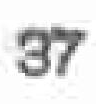37
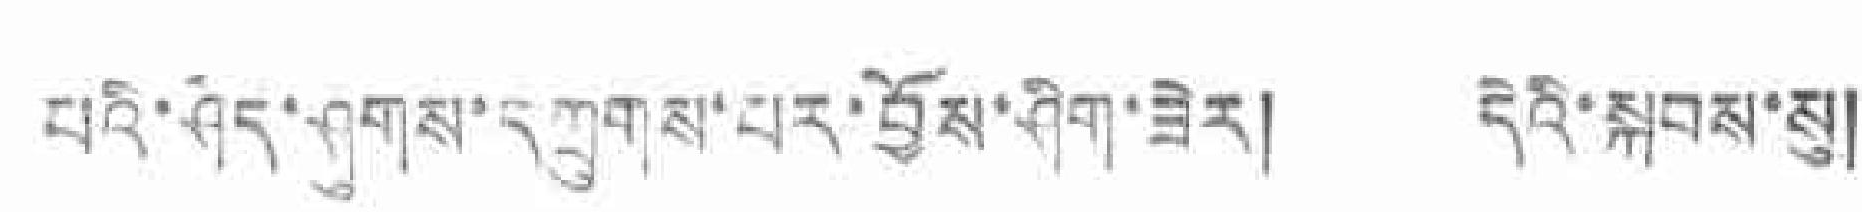པའི་ཤེད་ཤུགས་དཀྲུགས་པར་བྱོས་ཤིག་ཟེར། དེའི་སྐབས་སུ།
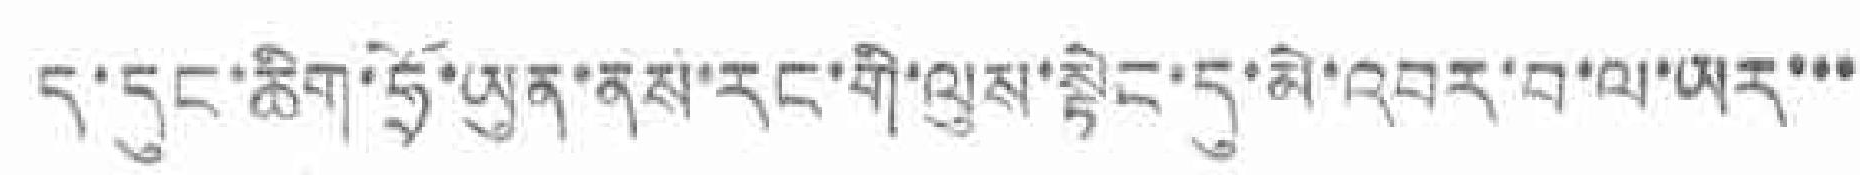ད་དུང་ཆིག་ཧྲོ་ཡུན་ནས་རང་གི་ལུས་སྟེང་དུ་མེ་འབར་བ་ལ་ཡར་་་
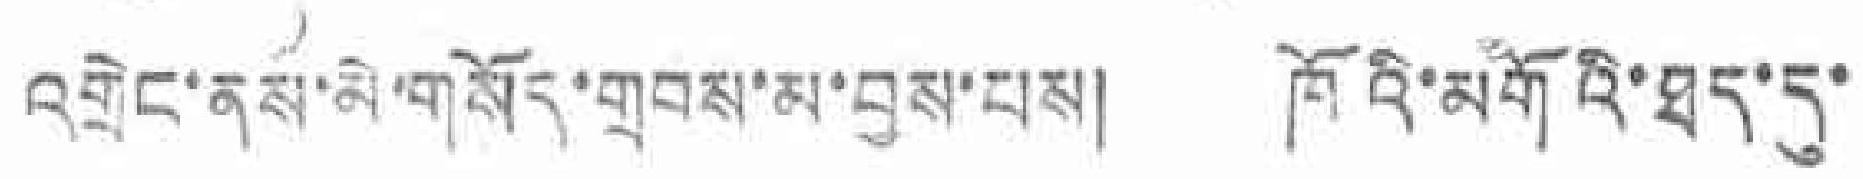འགྲེང་ནས་མེ་གསོར་གྲབས་མ་བྱས་པས། ཁོའི་མགོའི་ཐད་དུ་
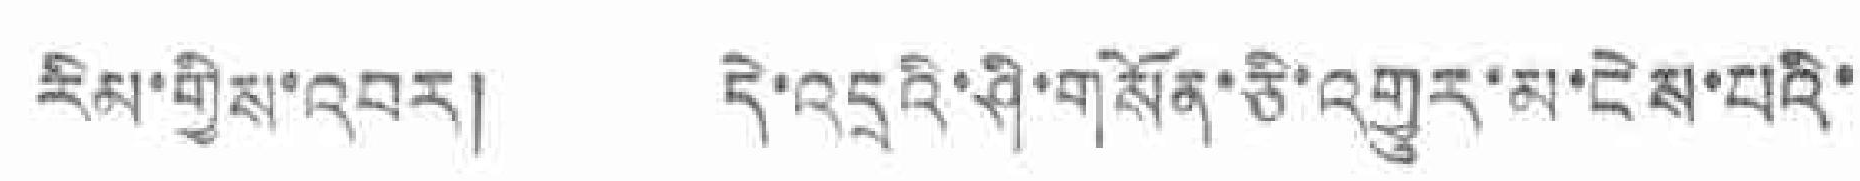རིམ་གྱིས་འབར། དེ་འདྲའི་ཤི་གསོན་ཅི་འགྱུར་མ་ངེས་པའི་
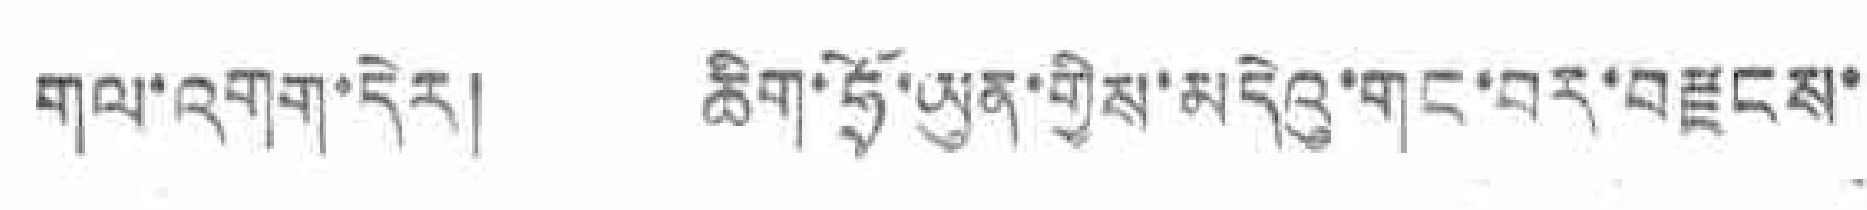གལ་འགག་དེར། ཆིག་ཧྲོ་ཡུན་གྱིས་མདེའུ་གང་བར་བརྫུངས་
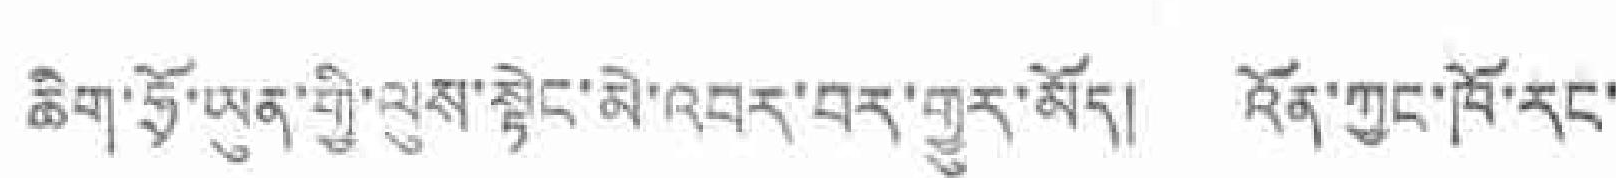ཆིག་ཧྲོ་ཡུན་གྱི་ལུས་སྟེང་མེ་འབར་བར་གྱུར་མོད། འོན་ཀྱང་ཁོ་རང་
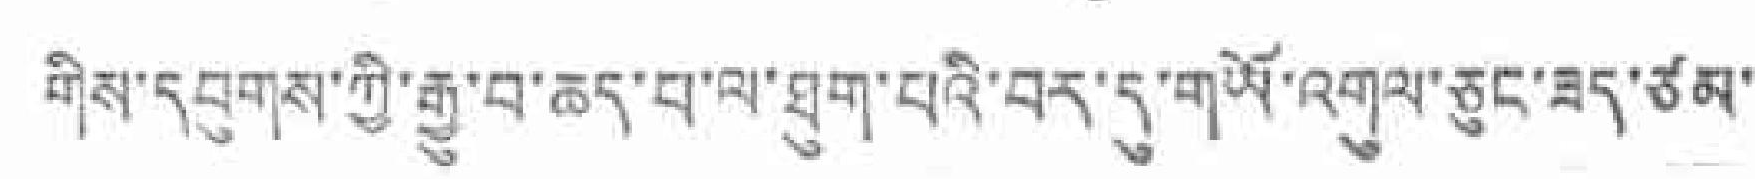གིས་དབུགས་ཀྱི་རྒྱུ་བ་ཆད་པ་ལ་ཐུག་པའི་བར་དུ་གཡོ་འགུལ་ཅུང་ཟད་ཙམ་་་
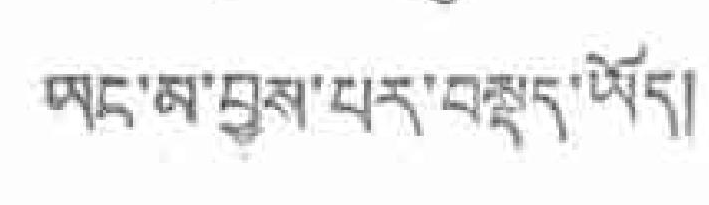ཡང་མ་བྱས་པར་བསྡད་ཡོད།
